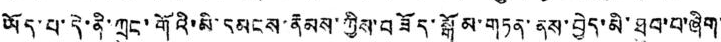ཡོད་པ་དེ་ནི་ཀྲུང་གོའི་མི་དམངས་རྣམས་ཀྱིས་བཟོད་སྒོམ་གཏན་ནས་བྱེད་མི་ཐུབ་པ་ཞིག་
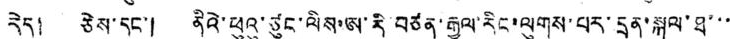རེད། ཅེས་དང་། ནིའེ་ཕུའུ་ཚུང་ལིས་ཨ་རི་བཙན་རྒྱལ་རིང་ལུགས་པར་དྲན་སྐུལ་ཐ་་་
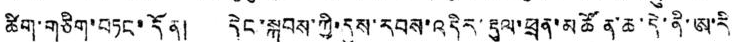ཚིག་གཅིག་བཏང་དོན། དེང་སྐབས་ཀྱི་དུས་རབས་འདིར་རྡུལ་ཕྲན་མཚོན་ཆ་དེ་ནི་ཨ་རི
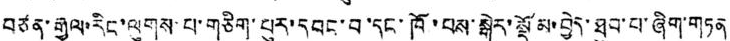བཙན་རྒྱལ་རིང་ལུགས་པ་གཅིག་པུར་དབང་བ་དནག་ཁོ་བས་སྒེར་སྡོམ་བྱེད་ཐུབ་པ་ཞིག་གཏན
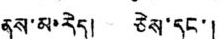ནས་མ་རེད། ཅེས་དང་།
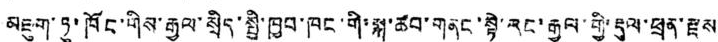མཇུག་ཏུ་ཁོང་གིས་རྒྱལ་སྲིད་སྤྱི་ཁྱབ་ཁང་གི་སྐུ་ཚབ་གནང་སྟེ་རང་རྒྱལ་གྱི་རྡུལ་ཕྲན་རྫས
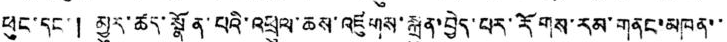ཕུང་དང་། མྱུར་ཚད་སྣོན་པའི་འཕྲུལ་ཆས་འཛུགས་སྐྲུན་བྱེད་པར་རོགས་རམ་གནང་མཁན་་
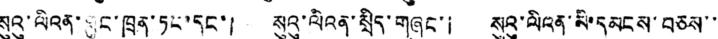སུའུ་ལིའན་གུང་ཁྲན་ཏང་དང་། སུའུ་ལིའན་སྲིད་གཞུང་། སུའུ་ལིའན་མི་དམངས་བཅས་་
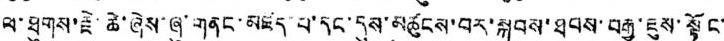ལ་ཐུགས་རྗེ་ཆེ་ཞེས་ཞུ་གནང་མཛད་པ་དང་དུས་མཚུངས་བར་སྐབས་ཐབས་བརྒྱ་ཇུས་སྟོང་
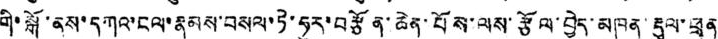གི་སྒོ་ནས་དགའ་ངལ་རྣམས་བསལ་ཏེ་ཧུར་བརྩོན་ཆེན་པོས་ལས་རྩོལ་བྱེད་མཁན་རྡུལ་ཕྲན་
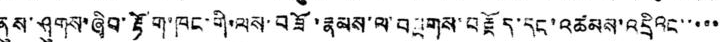ནུས་ཤུགས་ཞིབ་རྟོག་ཁང་གི་ལས་བཟོ་རྣམས་ལ་བསྔགས་བརྗོད་དང་འཚམས་འདྲིའང་་་་་
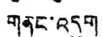གནང་འདུག
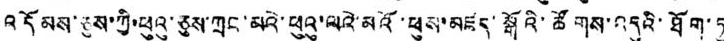འདོམས་ཅུས་ཀྱི་ཕུའུ་ཅུས་ཀྲང་མའེ་ཕུའུ་ལའེ་མའོ་ཕུས་མཛས་སྒོའི་ཚོགས་འདུའི་ཐོག་ཏུ
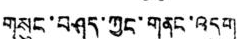གསུང་བཤད་ཀྱང་གནང་འདུག
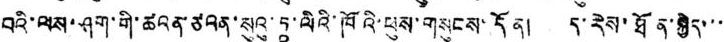བའི་ལས་ཤག་གི་ཚའན་ཙའན་སུའུ་ཏ་ལིའི་ཁོའི་ཕུས་གསུངས་དོན། ད་རེས་ཐོན་སྐྱེད་་་
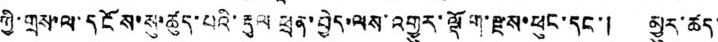ཀྱི་གྲས་ལ་དངོས་སུ་ཚུད་པའི་རྡུལ ཕྲན་བྱེད་ལས་འགྱུར་ལྡོག་རྫས་ཕུང་དང་། མྱུར་ཚད་
